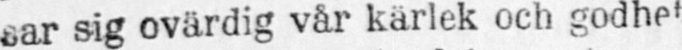sar sig ovärdig vår kärlek och godhet
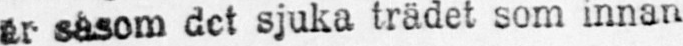är såsom det sjuka trädet som innan
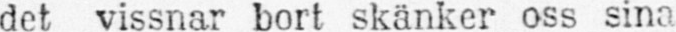det vissnar bort skänker oss sina
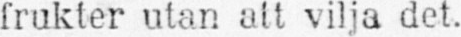frukter utan att vilja det.
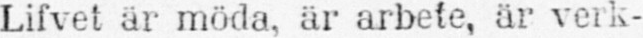Lifvet är möda, är arbete, är verk-
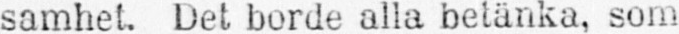samhet. Det borde alla betänka, som
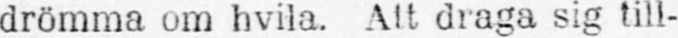drömma om hvila. Att draga sig till-
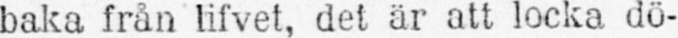baka från lifvet, det är att locka dö-
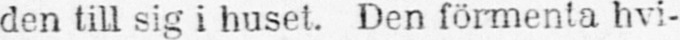den till sig i huset. Den förmenta hvi-
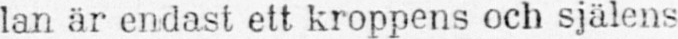lan är endast ett kroppens och själens
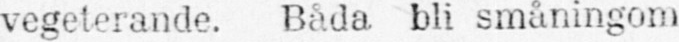vegeterande. Båda bli småningom
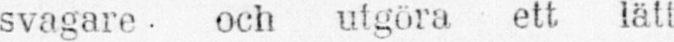svagare och utgöra ett lätt
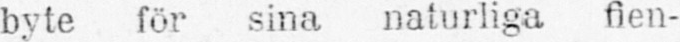byte för sina naturliga fien-
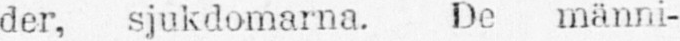der, sjukdomarna. De männi-
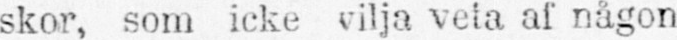skor, som icke vilja veta af någon
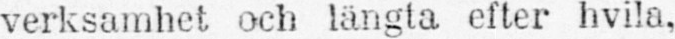verksamhet och längta efter hvila,
